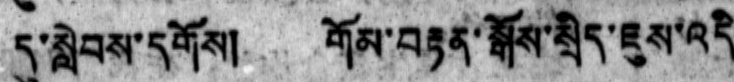དུ་སླེབས་དགོས། གོམ་བརྟན་སྒོས་སྲིད་ཇུས་འདི
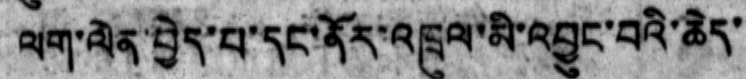ལག་ལེན་བྱེད་པ་དང་ནོར་འཁྲུལ་མི་འབྱུང་བའི་ཆེད་
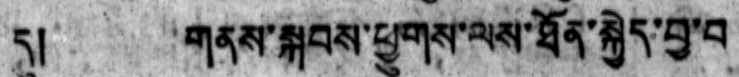དུ། གནས་སྐབས་ཕྱུགས་ལས་ཐོན་སྐྱེད་བྱ་བ
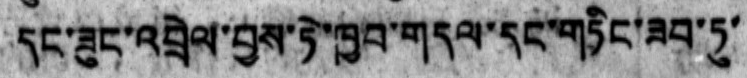དང་ཟུང་འབྲེལ་བྱས་ཏེ་ཁྱབ་གདལ་དང་གཏིང་ཟབ་ཏུ་
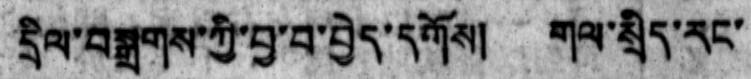དྲིལ་བསྒྲགས་ཀྱི་བྱ་བ་བྱེད་དགོས། གལ་སྲིད་རང་
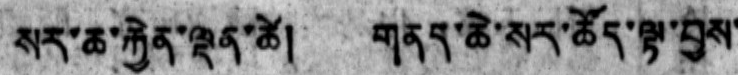སར་ཆ་རྐྱེན་ལྡན་ཚེ། གནད་ཆེ་སར་ཚོད་ལྟ་བྱས་
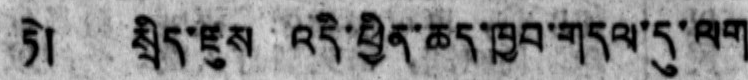ཏེ། སྲིད་ཇུས འདི་ཕྱིན་ཆད་ཁྱབ་གདལ་དུ་ལག
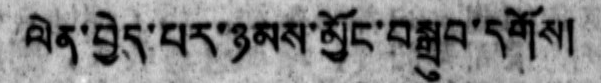ལེན་བྱེད་པར་ཉམས་མྱོང་བསྒྲུབ་དགོས།
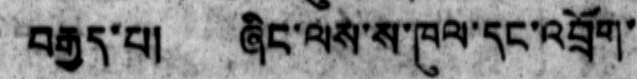བརྒྱད་པ། ཞིང་ལས་ས་ཁུལ་དང་འབྲོག་
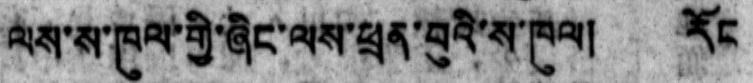ལས་ས་ཁུལ་གྱི་ཞིང་ལས་ཕྲན་བུའི་ས་ཁུལ། རོང
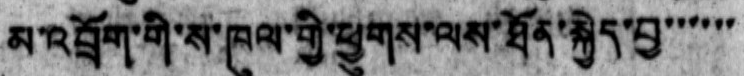མ་འབྲོག་གི་ས་ཁུལ་གྱི་ཕྱུགས་ལས་ཐོན་སྐྱེད་བྱ་་་་་་
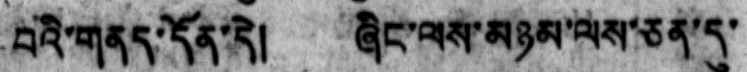བའི་གནད་དོན་དེ། ཞིང་ལས་མཉམ་ལས་ཅན་དུ་
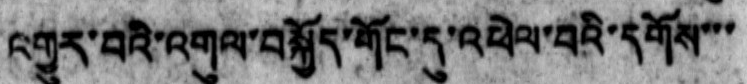འགྱུར་བའི་འགུལ་བསྐྱོད་གོང་དུ་འཕེལ་བའི་དགོས་་་
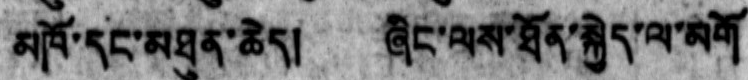མཁོ་དང་མཐུན་ཆེད། ཞིང་ལས་ཐོན་སྐྱེད་ལ་མགོ
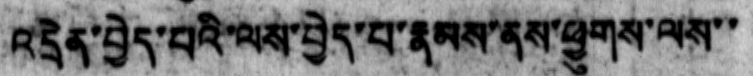འདྲེན་བྱེད་པའི་ལས་བྱེད་པ་རྣམས་ནས་ཕྱུགས་ལས་་
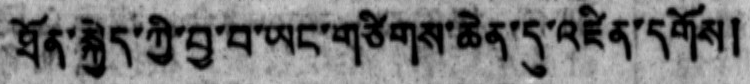ཐོན་སྐྱེད་ཀྱི་བྱ་བ་ཡང་གཙིགས་ཆེན་དུ་འཛིན་དགོས།
